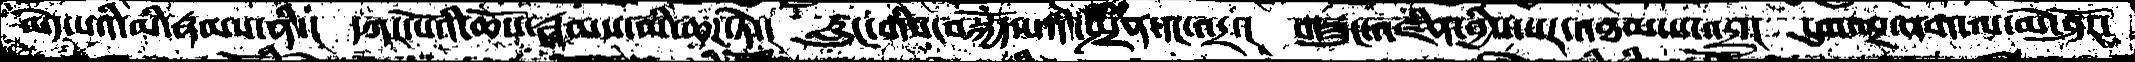མེད་པའི་མི་རྣྱམས་ནི་།  དཀར་པོའི་ཆོས་རྣམས་མི་ཆཌ་ཏེ་།  རླུང་གིས་བསྐྱོདཔའི་སྤྲིན་དང་འདྲ་།  གཟུང་འཛིན་བྱིས་པར་འཐམ་པ་འདྲ་།  དུག་ལྔ་ནག་ལ་མེ་ཤོར་
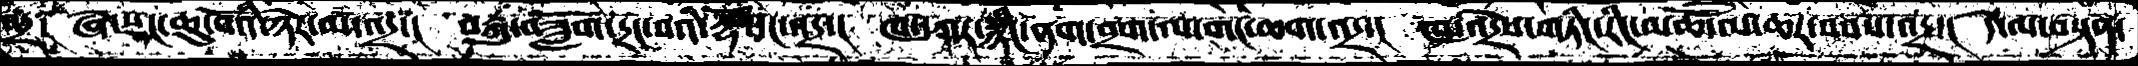འདྲ།  ཞེ་སྡང་ཆུ་བོའི་ཉེར་མ་འདྲ་།  བརྐུ་བཟློག་དྲང་བའི་ཌྷོ་དང་འདྲ་།  ཁ་དཀར་སྙིང་ནག་བྲག་ལ་གང་ཆག་འདྲ་།  ཁ་འདྲེས་གཏིང་རིང་མཚོ་ལ་ཆར་བབས་འདྲ་།  དེ་ལ་བསྟན་
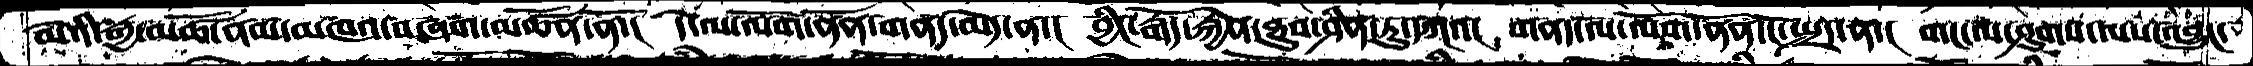མེའི་རྒྱ་མཚོ་ནམ་མཁའ་བཞག་མཚོན་ནོ་།  དེ་ལ་ལོག་ནོན་གནད་མེད་ན་།  བྱིང་རྒོད་རྐྱེན་ཐུབ་ཤིན་ཏུ་དཀའ།  གནད་ལ་ལོག་ནོན་ངོ་སྤྲད་ན་།  གང་ལ་ཤུགས་ལས་འབྱུང་
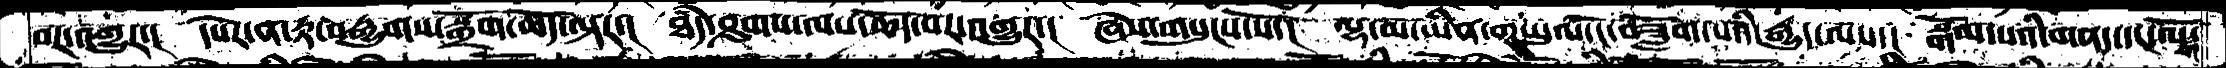བར་འགྱུར་།  དཔེར་ན་རྟ་བརྒྱུགས་སྒྲོག་ཆོད་ལྟར་།  ཐདཾ་ཤུགས་ལས་ཆོད་པར་འགྱུར་།  ཞེས་གསུངས་སོ་།  ལྷ་མ་ཡིན་ལཡུལ་ངོ་བཟློག་པའི་རྒྱུད་ལས་།  རྒོལ་པའི་གནད་དང་ལོ
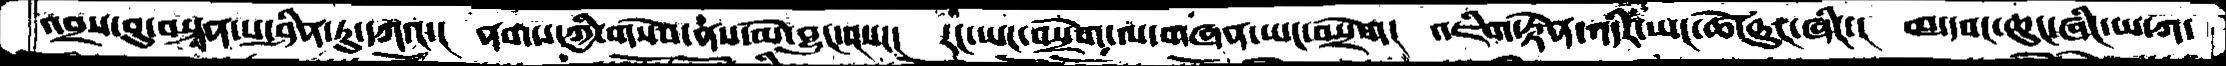འབྲས་བུ་བསྟན་པ་ཤིན་ཏུ་དཀའ་།  ནགས་ཀྱི་གསེབ་ནས་མེ་བྱུང་བས་།  རང་ཡང་བསྲེག་ལ་གཞན་ཡང་བསྲེག།  འཇིག་རྟེན་འདིར་ཡང་ཚེ་ཉུང་ཞིང་།  ཁ་དབང་ཆུང་ཞིང་ཡ་ཀ་
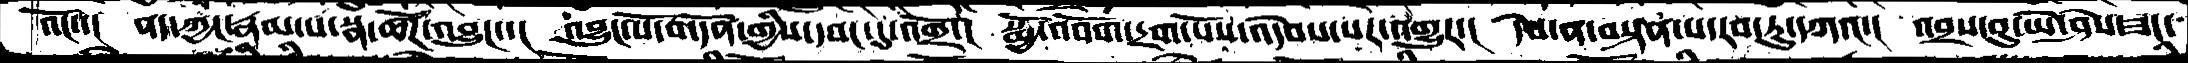འོང་་།  ནད་ཀྱང་རྣམ་པ་སྣ་ཚོགས་འབྱུང་་།  འབྱུང་པོ་གདོན་གྱིས་དབང་དུ་འགྲོ་།  སྨྱོ་འབོག་དྲག་པོས་འདེབས་པར་འགྱུར་།  དེས་ན་བསྟན་པ་རབ་ཏུ་དཀའ་།  འབྲས་བུ་ཡེ་ཤེས་ཟང་
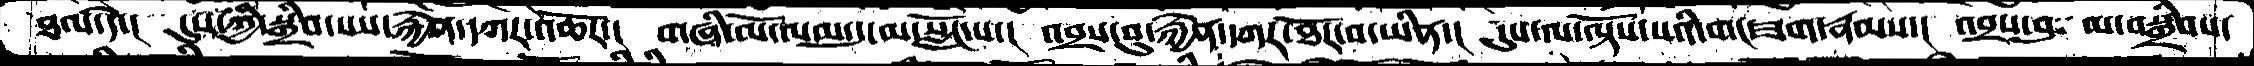ཐལ་དེ་།  དུས་ཀྱི་སྒྲིབ་པས་རྐྱེན་དཀར་འཆོར་།  གཞི་མོ་ལམ་དུ་མ་སློང་པ་།  འབྲས་བུ་རྐྱེན་དཀར་ཐོར་བ་ཡིན་།  དུས་ལ་ལྟོས་པའི་གང་ཟག་རྣམས་།  འབྲས་བུ་ མ་བསྒྲིབས་
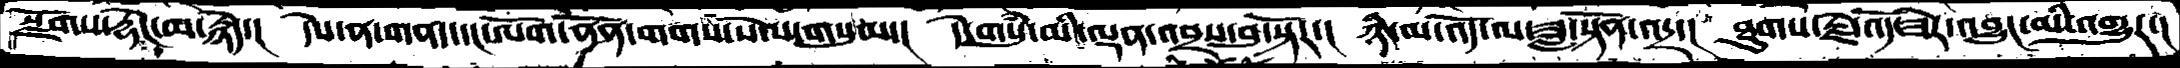སྫོགས་དྷེང་མ་རྙེད་།  དེས་ན་གནད་དང་ལོག་ནོན་གགས་སོལ་གསུམ་།  དེ་གསུཾ་མི་ལྡན་འབྲས་བུ་སྟོར་།  ཉི་མ་འོད་ལ་ཟླ་སྟོན་འདྲ་། ཐུགས་རྗེ་འོད་ཟེར་འབྱུང་མི་འགྱུར་།
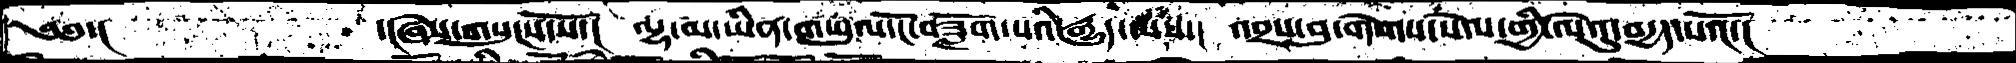༄༅་།      ་།ཞེས་གསུངས་སོ་།  ལྷ་མ་ཡིན་གཡུལ་ངོ་བཟློག་པའི་རྒྱུད་ལས་།  འབྲས་བུ་གེགས་སེལ་གྱི་ལེའུ་བདྱད་པའོ་།
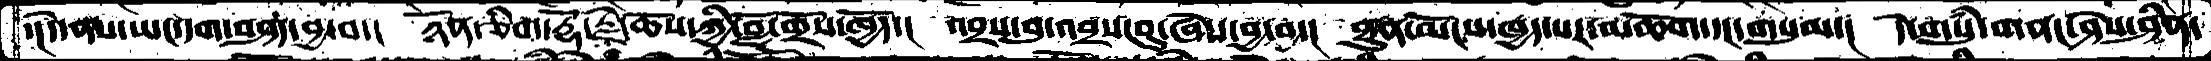་།དེ་ནས་ཡང་དག་བཤད་བྱ་བ་།  ཉོན་ཅིག་རྡོ་རྗེ་ཆོས་ཀྱི་བློ་གྲོས་ཁྱོད་།  འབྲས་བུ་འབྲས་བུ་ཞེས་བྱ་བ་།  ཐུན་མོངས་ཁྱད་པར་མཆོག་དང་གསུམ་།  དེ་གསུཾ་གནང་ཤེས་ཤིན་
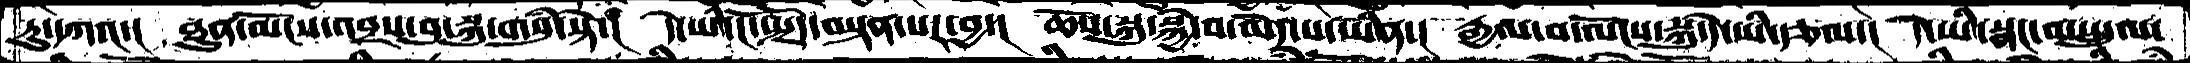ཏུ་དཀའ་།  ཐུན་མོངས་འབྲས་བུ་སྐུ་གསུཾ་སྟེ་།  དེ་ཡི་ངོ་སྤྲོད་བསྟན་པར་བྱ་།  ཆོས་སྐུ་སྐྱེ་བ་མེད་པ་ཡིན་།  རྒྱལ་བ་ལོངས་སྐུ་དེ་ཡི་རྩལ་།  དེ་ཡི་སྣང་བ་སྤྲུལ་
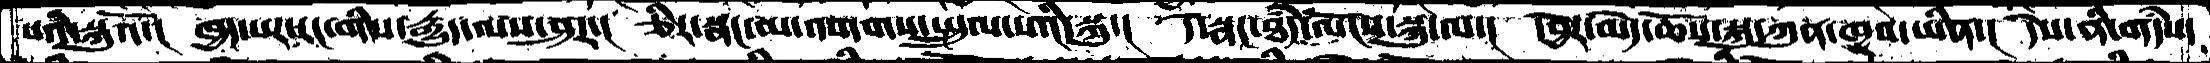པའི་སྐུའོ་།   ཁྱད་པར་རང་གིས་རྒྱུད་ལས་ཤར་།  ཅིར་སྣང་མ་འགགས་སྤྲུལ་པའི་སྐུ་།  དེ་སྣང་ཐཾད་ལོངས་སྐུ་ལ་།  དབྱེར་མེད་ཆོས་སྐུ་ཀུན་ཁྱབ་ཡིན་།  དེས་ནི་གདཾས་
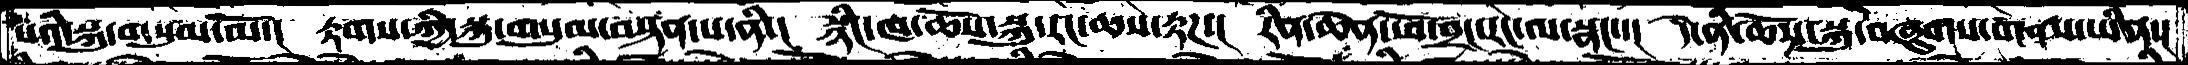པའི་སྐུ་གསུམ་མོ་།  རྟགས་ཀྱི་སྐུ་གསུམ་བསྟན་པ་ནི་།  སྙིང་ཁ་ཆོས་སྐུ་རང་ཆས་རྟཌ་།  རིན་ཆེན་ཕོ་བྲང་རང་ལ་སྣང་་།  དེ་ནི་ཆོས་སྐུ་བཞུགས་གནས་ཡིན་།
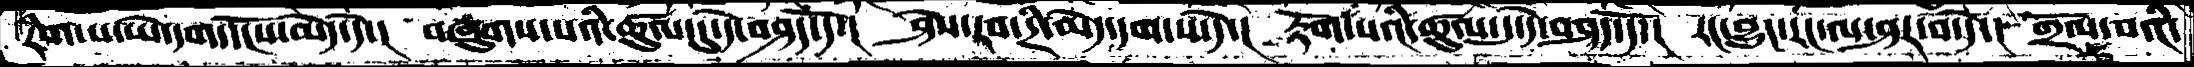རིག་པ་ཡེ་དག་དངོས་མེད་དེ་།  བཞུགས་པའི་ཚུལ་དུ་དེ་བཤད་དོ་།  ཤེས་རབ་དྲི་མེད་དག་པ་དེ་།  རྟོག་པའི་ཚུལ་དུ་དེ་བཤད་དོ་།  རང་བྱུང་རང་ལ་ཤར་བ་དེ་།  གྲོལ་བའི་
